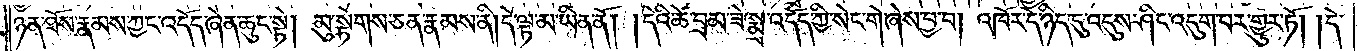ཉན་ཐོས་རྣམས་ཀྱང་འདོད་ཞེན་ཆུང་སྟེ། མུ་སྟེགས་ཅན་རྣམས་ནི། དེ་ལྟ་མ་ཡིན་ནོ། །དེའི་ཚེ་བྲམ་ཟེ་སྨྲ་འདོད་ཀྱི་སེང་གེ་ཞེས་བྱ་བ། འཁོར་དེ་ཉིད་དུ་འདུས་ཤིང་འདུག་པར་གྱུར་ཏོ། །དེ་
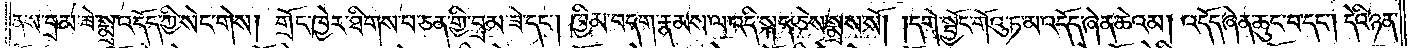ནས་བྲམ་ཟེ་སྨྲ་འདོད་ཀྱི་སེང་གེས། གྲོང་ཁྱེར་ཐིགས་པ་ཅན་གྱི་བྲམ་ཟེ་དང༌། ཁྱིམ་བདག་རྣམས་ལ་འདི་སྐད་ཅེས་སྨྲས་སོ། །དགེ་སྦྱོང་གོའུ་ཏ་མ་འདོད་ཞེན་ཆེའམ། འདོད་ཞེན་ཆུང་བ་དང༌། དེའི་ཉན་
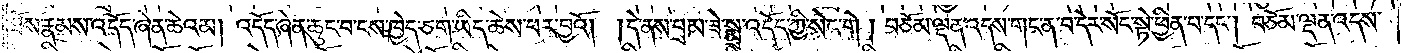ཐོས་རྣམས་འདོད་ཞེན་ཆེའམ། འདོད་ཞེན་ཆུང་བ་ངས་ཁྱེད་ཅག་ཡིད་ཆེས་པར་བྱའོ། །དེ་ནས་བྲམ་ཟེ་སྨྲ་འདོད་ཀྱི་སེང་གེ། བཅོམ་ལྡན་འདས་གང་ན་བ་དེར་སོང་སྟེ་ཕྱིན་པ་དང༌། བཅོམ་ལྡན་འདས་
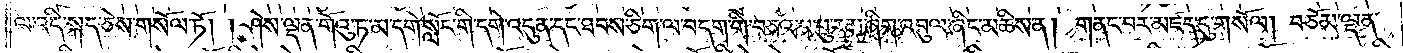ལ་འདི་སྐད་ཅེས་གསོལ་ཏོ། །ཤེས་ལྡན་གོའུ་ཏ་མ་དགེ་སློང་གི་དགེ་འདུན་དང་ཐབས་ཅིག་ལ་བདག་གི་བཅའ་བ་བུ་རམ་ཞིག་འབུལ་ཞིང་མཆིས་ན། གནང་བར་མཛད་དུ་གསོལ། བཅོམ་ལྡན་
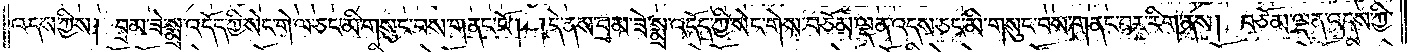འདས་ཀྱིས། བྲམ་ཟེ་སྨྲ་འདོད་ཀྱི་སེང་གེ་ལ་ཅང་མི་གསུང་བས་གནང་ངོ༌། །དེ་ནས་བྲམ་ཟེ་སྨྲ་འདོད་ཀྱི་སེང་གེས་བཅོམ་ལྡན་འདས་ཅང་མི་གསུང་བས་གནང་བར་རིག་ནས། བཅོམ་ལྡན་འདས་ཀྱི་
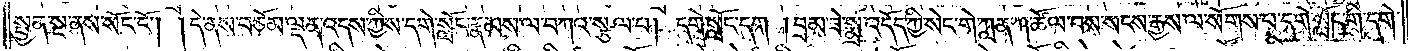སྤྱན་སྔ་ནས་སོང་ངོ༌། །དེ་ནས་བཅོམ་ལྡན་འདས་ཀྱིས་དགེ་སློང་རྣམས་ལ་བཀའ་སྩལ་པ། དགེ་སློང་དག །བྲམ་ཟེ་སྨྲ་འདོད་ཀྱི་སེང་གེ་ཀླན་ཀ་ཚོལ་བས་སངས་རྒྱས་ལ་སོགས་པ་དགེ་སློང་གི་དགེ་
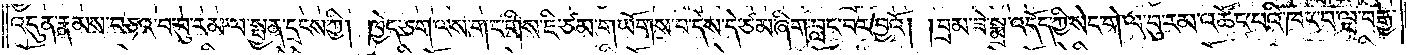འདུན་རྣམས་བཅའ་བ་བུ་རམ་ལ་སྤྱན་དྲངས་ཀྱི། ཁྱེད་ཅག་ལས་གང་གིས་ཇི་ཙམ་གཡོགས་པ་དེས་དེ་ཙམ་ཞིག་བླང་བར་བྱའོ། །བྲམ་ཟེ་སྨྲ་འདོད་ཀྱི་སེང་གེ་ལ་བུ་རམ་འཚོང་བའི་ཁང་པ་ལྔ་བརྒྱ་
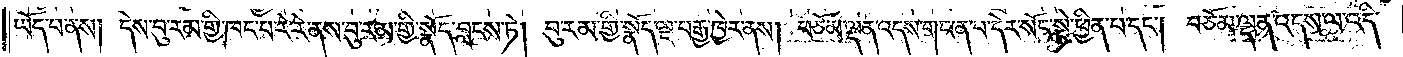ཡོད་པ་ནས། དེས་བུ་རམ་གྱི་ཁང་པ་རེ་རེ་ནས་བུ་རམ་གྱི་སྣོད་བླངས་ཏེ། བུ་རམ་གྱི་སྣོད་ལྔ་བརྒྱ་ཁྱེར་ནས། བཅོམ་ལྡན་འདས་གང་ན་བ་དེར་སོང་སྟེ་ཕྱིན་པ་དང༌། བཅོམ་ལྡན་འདས་ལ་འདི་
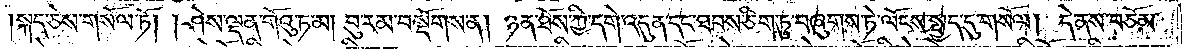།སྐད་ཅེས་གསོལ་ཏོ། །ཤེས་ལྡན་གོའུ་ཏ་མ། བུ་རམ་བསྔོགས་ན། ཉན་ཐོས་ཀྱི་དགེ་འདུན་དང་ཐབས་ཅིག་ཏུ་བཞུགས་ཏེ་ལོངས་སྤྱད་དུ་གསོལ། དེ་ནས་བཅོམ་
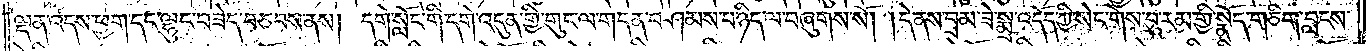ལྡན་འདས་ཕྱག་དང་ལྷུང་བཟེད་བཅབས་ནས། དགེ་སློང་གི་དགེ་འདུན་གྱི་གུང་ལ་གདན་བཤམས་པ་ཉིད་ལ་བཞུགས་སོ། །དེ་ནས་བྲམ་ཟེ་སྨྲ་འདོད་ཀྱི་སེང་གེས་བུ་རམ་གྱི་སྣོད་གཅིག་བླངས་
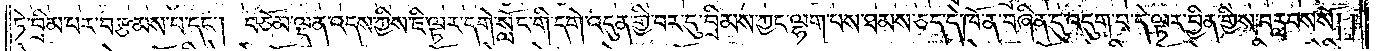ཏེ་བྲིམ་པར་བརྩམས་པ་དང༌། བཅོམ་ལྡན་འདས་ཀྱིས་ཇི་ལྟར་དགེ་སློང་གི་དགེ་འདུན་གྱི་བར་དུ་བྲིམས་ཀྱང་ལྷག་པས་ཐམས་ཅད་དེ་ཁོ་ན་བཞིན་དུ་འདུག་པ་དེ་ལྟར་བྱིན་གྱིས་བརླབས་སོ༎
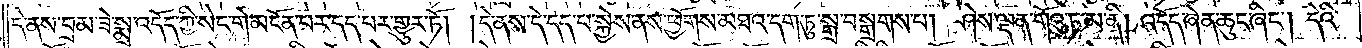དེ་ནས་བྲམ་ཟེ་སྨྲ་འདོད་ཀྱི་སེང་གེ་མངོན་པར་དད་པར་གྱུར་ཏོ། །དེ་ནས་དེ་དད་པ་སྐྱེས་ནས་ཕྱོགས་མཐའ་དག་ཏུ་སྒྲ་བསྒྲགས་པ། ཤེས་ལྡན་གོའུ་ཏ་མ་ནི། འདོད་ཞེན་ཆུང་ཞིང༌། དེའི་
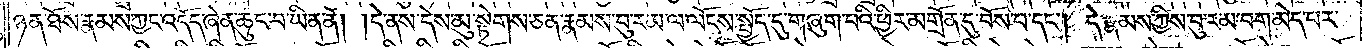ཉན་ཐོས་རྣམས་ཀྱང་འདོད་ཞེན་ཆུང་བ་ཡིན་ནོ། །དེ་ནས་དེས་མུ་སྟེགས་ཅན་རྣམས་བུ་རམ་ལ་ལོངས་སྤྱོད་དུ་གཞུག་པའི་ཕྱིར་མགྲོན་དུ་བོས་པ་དང༌། དེ་རྣམས་ཀྱིས་བུ་རམ་བག་མེད་པར་
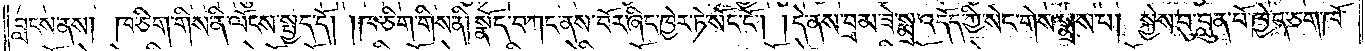བླངས་ནས། ཁ་ཅིག་གིས་ནི་ལོངས་སྤྱད་དོ། །ཁ་ཅིག་གིས་ནི། སྣོད་བཀང་ནས་བོར་ཞིང་ཁྱེར་ཏེ་སོང་ངོ༌། །དེ་ནས་བྲམ་ཟེ་སྨྲ་འདོད་ཀྱི་སེང་གེས་སྨྲས་པ། སྐྱེས་བུ་བླུན་པོ་ཁྱེད་ཅག་ཁོ་
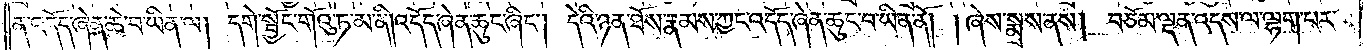ན་འདོད་ཞེན་ཆེ་བ་ཡིན་ལ། དགེ་སྦྱོང་གོའུ་ཏ་མ་ནི། འདོད་ཞེན་ཆུང་ཞིང༌། དེའི་ཉན་ཐོས་རྣམས་ཀྱང་འདོད་ཞེན་ཆུང་བ་ཡིན་ནོ། །ཞེས་སྨྲས་ནས། བཅོམ་ལྡན་འདས་ལ་ལྷག་པར་
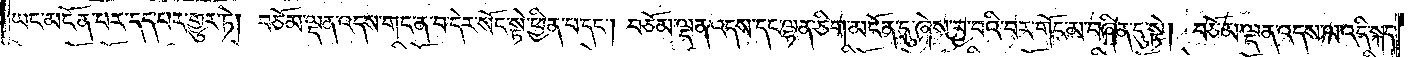ཡང་མངོན་པར་དད་པར་གྱུར་ཏེ། བཅོམ་ལྡན་འདས་གང་ན་བ་དེར་སོང་སྟེ་ཕྱིན་པ་དང༌། བཅོམ་ལྡན་འདས་དང་ལྷན་ཅིག་མངོན་དུ་ཞེས་བྱ་བའི་བར་གོང་མ་བཞིན་དུ་སྟེ། བཅོམ་ལྡན་འདས་ལ་འདི་སྐད་
